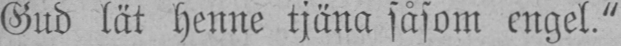Gud lät henne tjäna såsom engel."
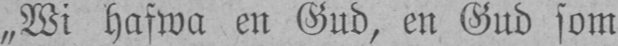„Wi hafwa en Gud, en Gud som
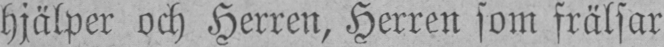hjälper och Herren, Herren som frälsar
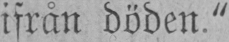ifrån döden."
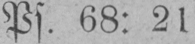Ps. 68: 2l.
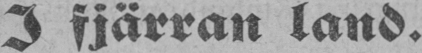I fjärran land.
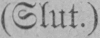(Slut.)
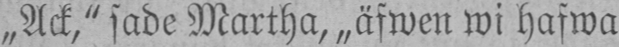„Ack," sade Martha, „äfwen wi hafwa
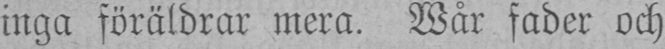inga föräldrar mera. Wår fader och
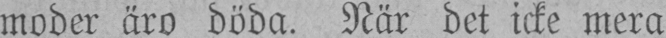moder äro döda. När det icke mera
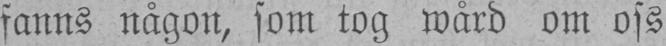fanns någon, som tog wård om oss
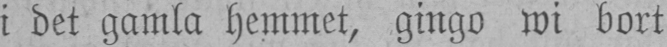i det gamla hemmet, gingo wi bort
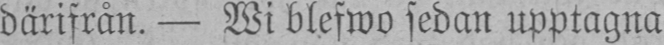därifrån. — Wi blefwo fedan upptagna
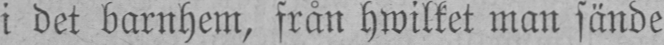i det barnhem, från hwilket man sände
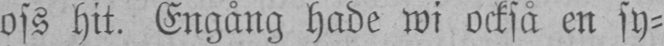oss hit. Engång hade wi också en sy-
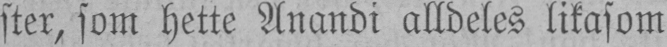ster, som hette Anandi alldeles likasom
